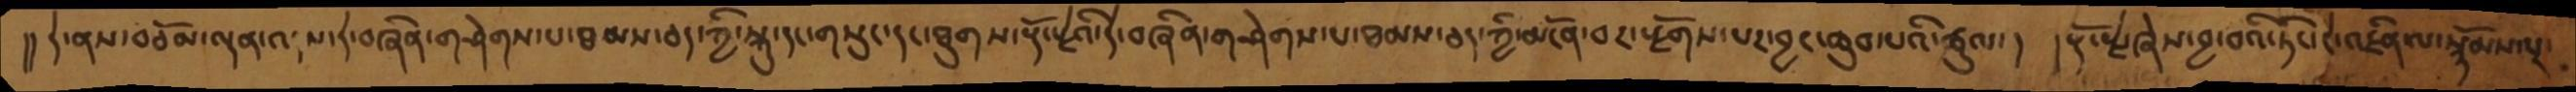།། དེ་ནས་བཅོམ་ལྡན་འདས་དེ་བཞིན་གཤེགས་པ་ཐམས་ཅད་ཀྱི་སྐུ་དང་གསུང་དང་ཐུགས་རྡོ་རྗེའི་དེ་བཞིན་གཤེགས་པ་ཐམས་ཅད་ཀྱི་མངོན་པར་རྫོགས་པར་བྱང་ཆུབ་པའི་ཚུལ་། །རྡོ་རྗེ་ཞེས་བྱ་བའི་ཏིང་ངེ་འཛིན་ལ་སྙོམས་པར་
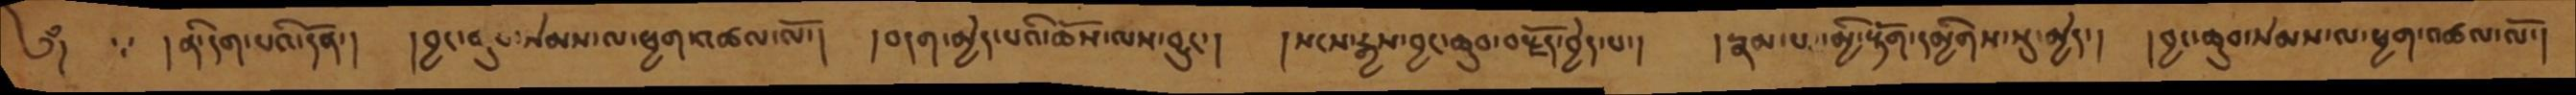༄ཾ།   ∵  །ནི་དག་པའི་དོན།    །བྱང་ཆུབ་སེམས་ལ་ཕྱག་འཚལ་ལོ་།   །བདག་མྱེད་པའི་ཆོས་ལས་བྱུང་།    །སངས་རྒྱས་བྱང་ཆུབ་བརྗོད་བྱེད་པ་།  །རྣམ་པ་མྱི་རྟོག་དམྱིགས་སུ་མྱེད།   །བྱང་ཆུབ་སེམས་ལ་ཕྱག་འཚལ་ལོ་།
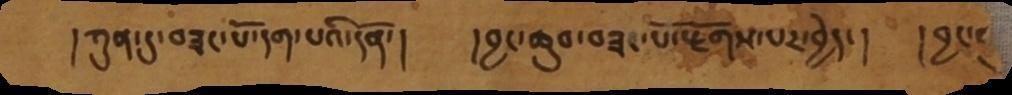། ཀུན་དུ་བཟང་པོ་དག་པའི་དོན་།  །བྱང་ཆུབ་བཟང་པོ་རྫོགས་པར་བྱེད་།   ། བྱང་
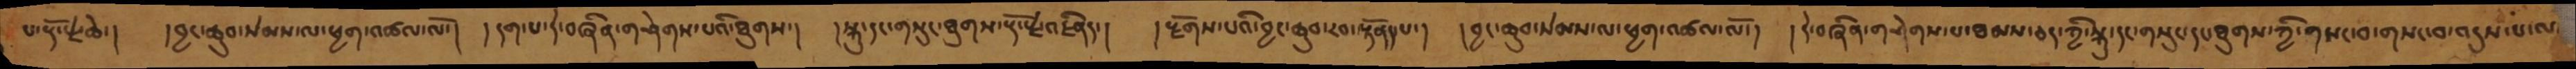པ་རྡོ་རྗེ་ཆེ་།   །བྱང་ཆུབ་སེམས་ལ་ཕྱག་འཚལ་ལོ་།   །དག་པ་དེ་བཞིན་གཤེགས་པའི་ཐུགས་།   །སྐུ་དང་གསུང་ཐུགས་རྡོ་རྗེ་འཛིན་།  །རྫོགས་པའི་བྱང་ཆུབ་རབ་སྟོནད་པ་། །བྱང་ཆུབ་སེམས་ལ་ཕྱག་འཚལ་ལོ་།   །དེ་བཞིན་གཤེགས་པཐམས་ཅད་ཀྱི་སྐུ་དང་གསུང་དང་ཐུགས་ཀྱི་གསང་བ་གསང་བ་འདུས་པ་ལ་
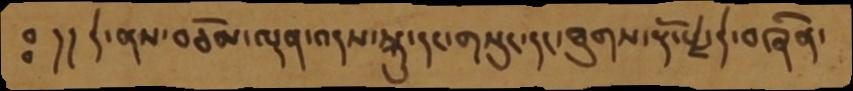ཿ  །། དེ་ནས་བཅོམ་ལྡན་འདས་སྐུ་དང་གསུང་དང་ཐུགས་རྡོ་རྗེ་དེ་བཞིན་
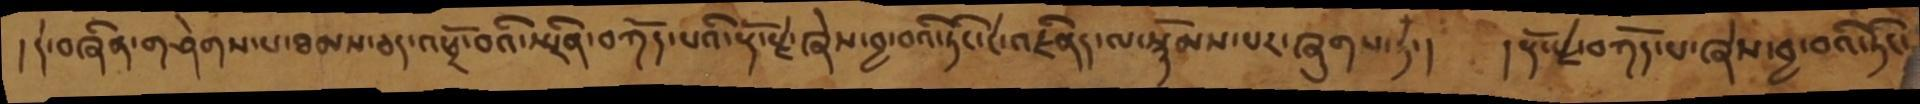།དེ་བཞིན་གཤེགས་པ་ཐམས་ཅད་འཕྲོ་བའི་སྤྲིན་བཀོད་པའི་རྡོ་རྗེ་ཞེས་བྱ་བའི་ཏིང་ངེ་འཛིནད་ལ་སྙོམས་པར་ཞུགས་ཏེ་།  ། རྡོ་རྗེ་བཀོད་པ་ཞེས་བྱ་བའི་ཏིང་ེ
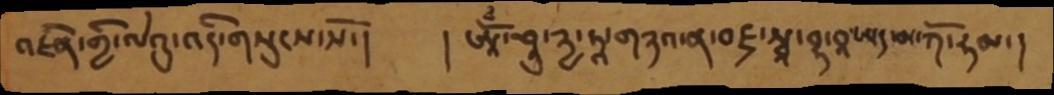འཛིན་གྱིལེའུ་འདི་གསུངས་སོ་།  །ཨཱོྃ་ཤཱུ་ཉྱ་ཏཱ་གཉའ་ན་བཛྲ་སྭཱ་བྷ་བཱ་ཨད་མ་ཀོ་ཧམ་།
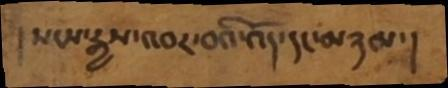སངས་རྒྱས་འབར་བའི་འོད་དང་མཉམ་།
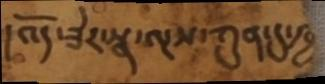།འོད་ཟེར་སྣ་ལྔས་ཀུན་དུ་ཁྱ
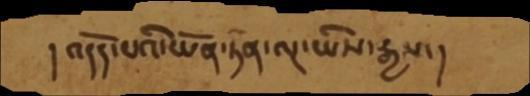། འདོད་པའི་ཡོན་ཏན་ལྔ་ཡིས་རྒྱས་།
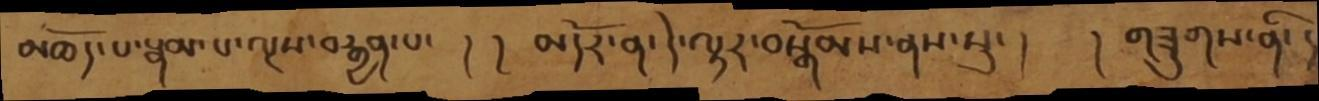མཆོད་པ་རྣམ་པ་ལྔས་བརྒྱན་པ་  ། ། མདོར་ན་དེ་ལྟར་བསྒོམས་ནས་སུ་ །  ། གཟུགས་ནི་ །
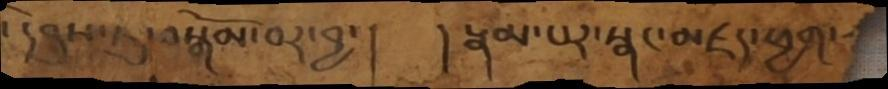་དབུས་སུ་བསྒོམ་བར་བྱ་།   །རྣམ་པར་སྣང་མཛད་ཕྱག་
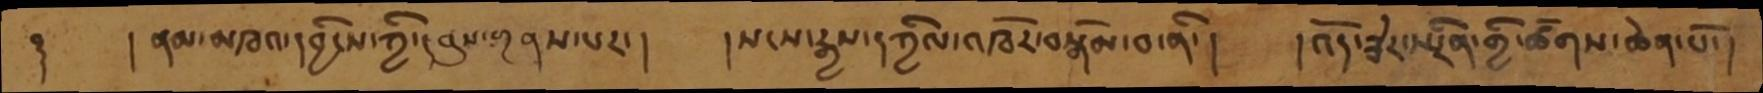༈    །ནམ་མཁའ་དབྱིངས་ཀྱི་དབུས་གནས་པར་།   །སངས་རྒྱས་དཀྱིལ་འཁོར་བསྒོམ་བ་ནི།  །འོད་ཟེར་སྤྲིན་གྱི་ཚོགས་ཆེན་པོ་།
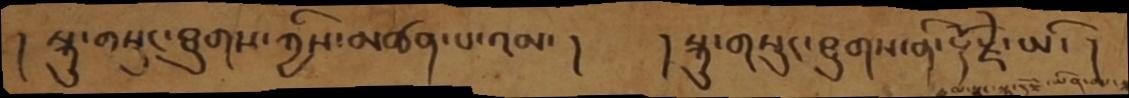། སྐུ་གསང་ཐུགས་ཀྱིས་མཚན་པ་འམ་།    །སྐུ་གསུང་ཐུགས་ནི་རྡོ་རྗེ་ཡི་།
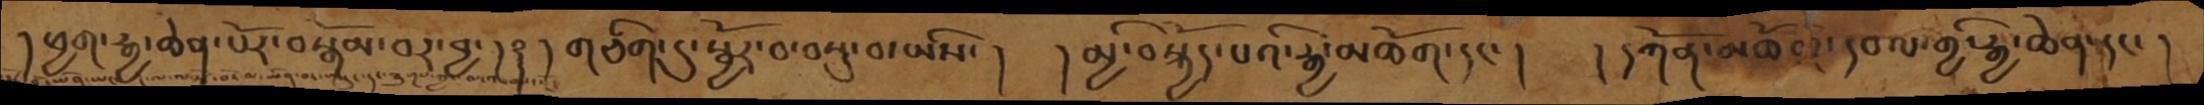།ཕྱག་རྒྱ་ཆེན་པོར་བསྒོམ་བར་བྱ་།   ༈  །གཅིག་དུ་སྦྱོར་བ་བསྡུ་བ་ཡིས་།   །མྱི་བསྐྱོད་པའི་རྒྱ་མཆོག་དང་།    །དཀོན་མཆོག་དཔལ་གྱི་རྒྱ་ཆེན་དང་།
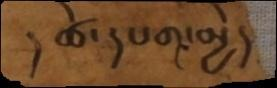། ཚེ་དཔག་མྱེ།
